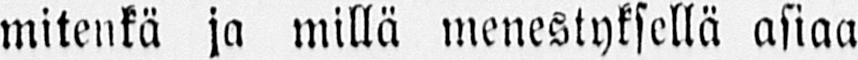mitenkä ja millä menestyksellä asiaa
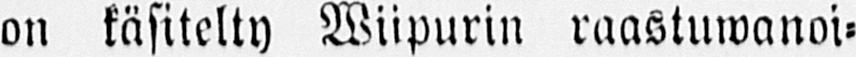on käsitelty Wiipurin raastuwanoi-
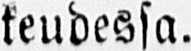keudessa.
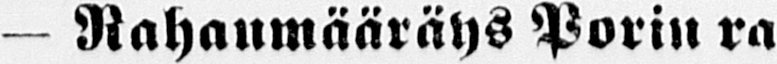— Rahanmääräys Porin ra-
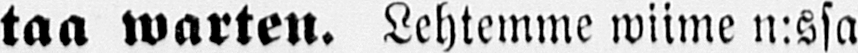taa warten. Lehtemme wiime n:ssa
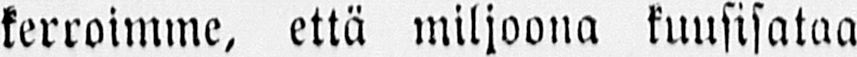kerroimme, että miljoona kuusisataa
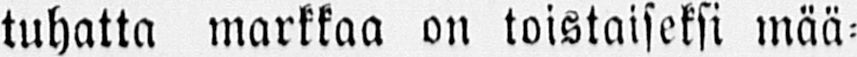tuhatta markkaa on toistaiseksi mää-
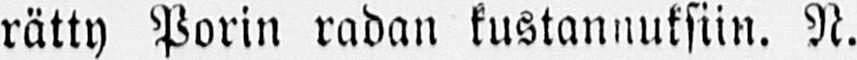rätty Porin radan kustannuksiin. N.
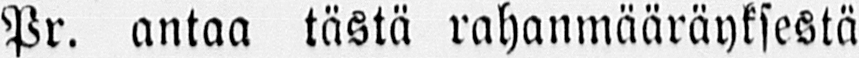Pr. antaa tästä rahanmääräyksestä
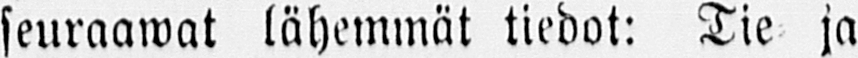seuraawat lähemmät tiedot: Tie ja
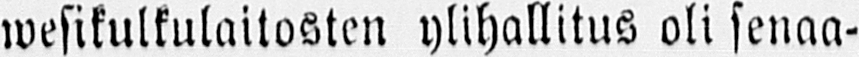wesikulkulaitosten ylihallitus oli senaa-
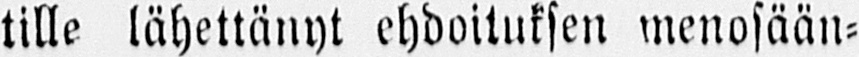tille lähettänyt ehdoituksen menosään-
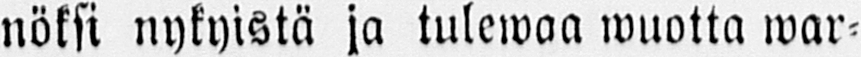nöksi nykyistä ja tulewaa wuotta war-
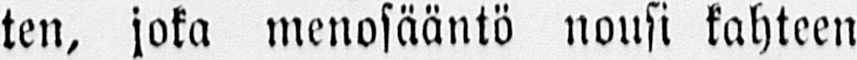ten, joka menosääntö nousi kahteen
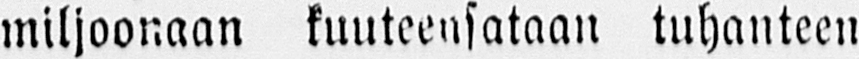miljoonaan kuuteensataan tuhanteen
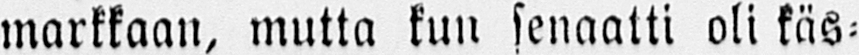markkaan, mutta kun senaatti oli käs-
